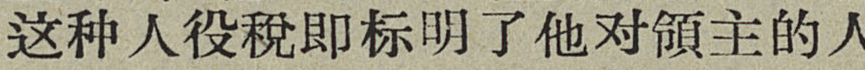这种人役稅即标明了他对領主的人
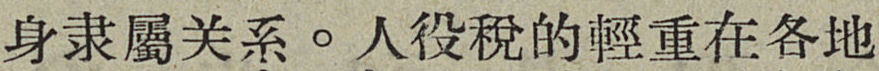身隶屬关系。人役稅的輕重在各地
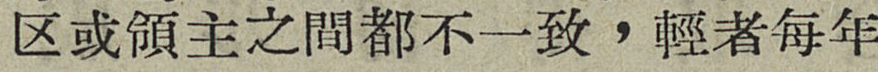区或領主之間都不一致，輕者每年
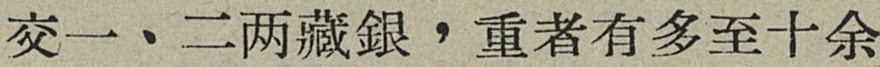交一、二两藏銀，重者有多至十余
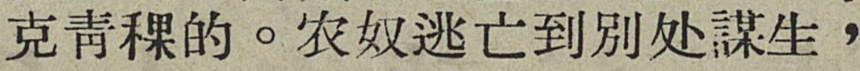克靑稞的。农奴逃亡到别处謀生，
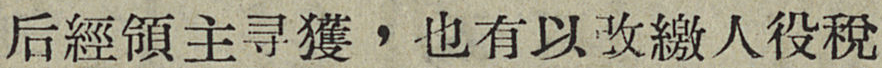后經領主寻獲，也有以改繳人役稅
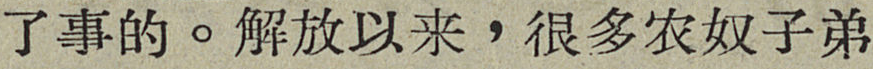了事的。解放以来，很多农奴子弟
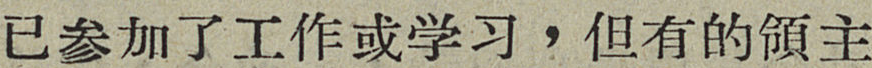已参加了工作或学习，但有的領主
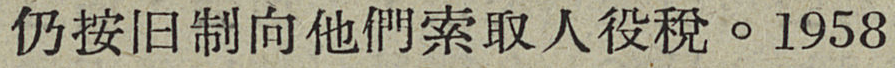仍按旧制向他們索取人役稅。1958
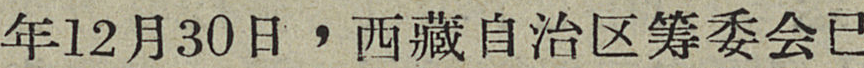年12月30日，西藏自治区筹委会已
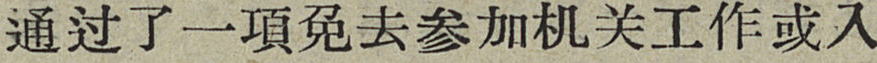通过了一項免去参加机关工作或入
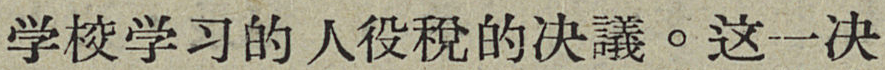学校学习的人役稅的决議。这一决
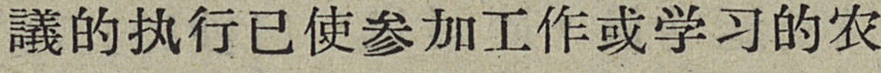議的执行已使参加工作或学习的农
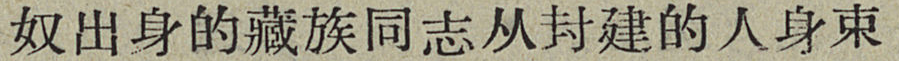奴出身的藏族同志从封建的人身束
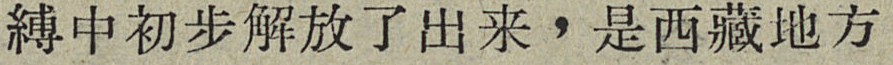縛中初步解放了出来，是西藏地方
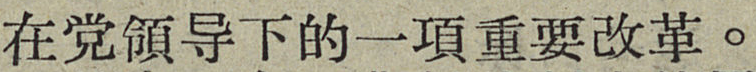在党領导下的一項重要改革。
